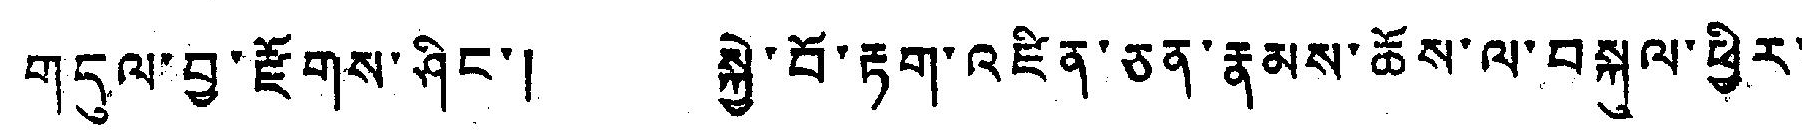གདུལ་བྱ་རྫོགས་ཤིང་། སྐྱེ་བོ་རྟག་འཛིན་ཅན་རྣམས་ཆོས་ལ་བསྐུལ་ཕྱིར་
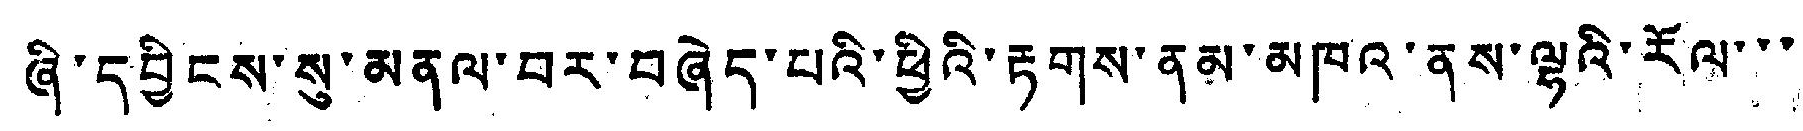ཞི་དབྱིངས་སུ་མནལ་བར་བཞེད་པའི་ཕྱིའི་རྟགས་ནམ་མཁའ་ནས་ལྷའི་རོལ་་་
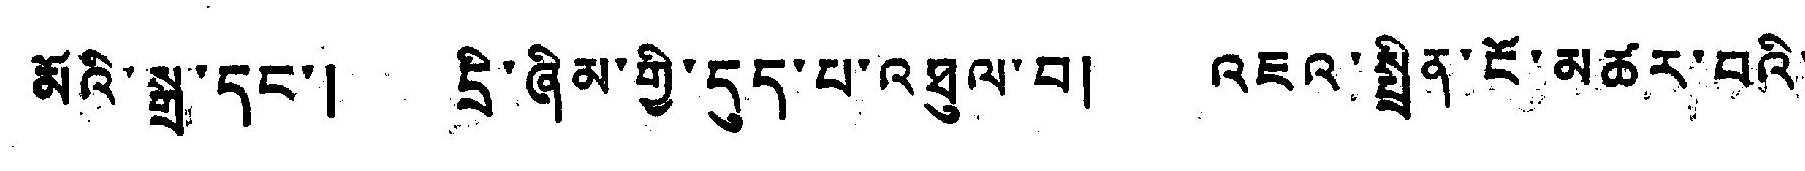མོའི་སྒྲ་དང་། དྲི་ཞིམ་གྱི་དུད་པ་འཐུལ་བ། འཇའ་སྤྱིན་ངོ་མཚར་བའི་
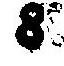8
